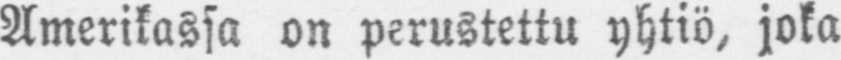Amerikassa on perustettu yhtiö, joka
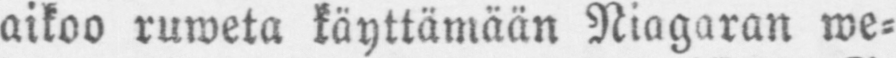aikoo ruweta käyttämään Niagaran we-
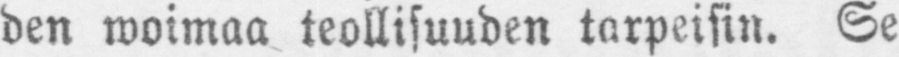den woimaa teollisuuden tarpeisin. Se
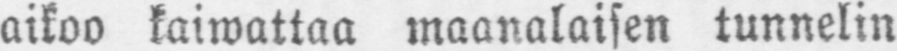aikoo kaiwattaa maanalaisen tunnelin
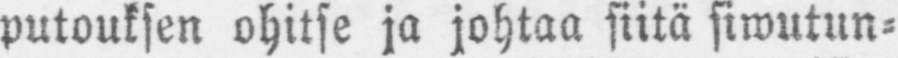putouksen ohitse ja johtaa siitä siwutun-
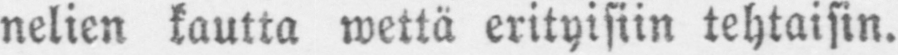nelien kautta wettä erityisiin tehtaisin.
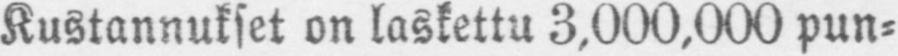Kustannukset on laskettu 3,000,000 pun-
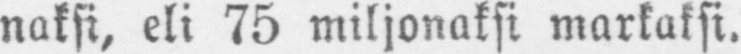naksi, eli 75 miljonaksi markaksi.
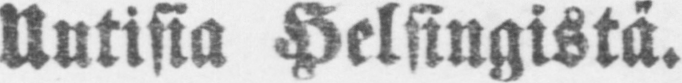Uutisia Helsingistä.
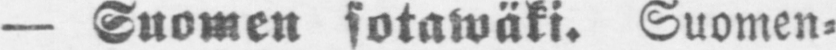— Suomen sotatwäki. Suomen-
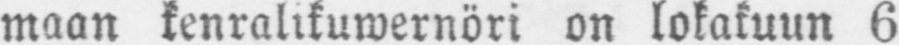maan kenralikuwernöri on lokakuun 6
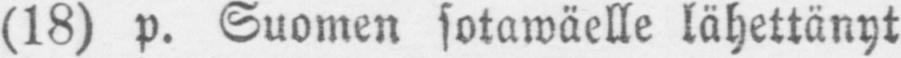(18) p. Suomen sotawäelle lähettänyt
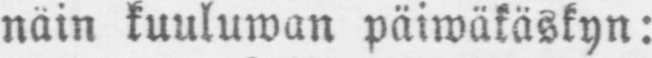näin kuuluwan päiwäkäskyn:
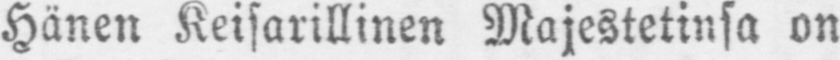Hänen Keisarillinen Majestetinsa on
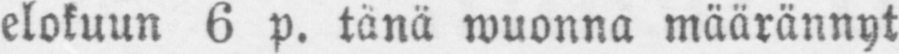elokuun 6 p. tänä wuonna määrännyt
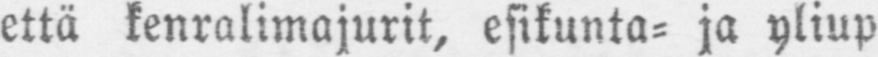että kenralimajurit, esikunta- ja yliup-
